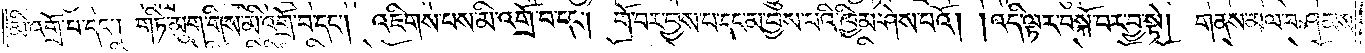མི་འགྲོ་བ་དང༌། གཏི་མུག་གིས་མི་འགྲོ་བ་དང༌། འཇིགས་པས་མི་འགྲོ་བ་དང༌། གོ་བར་བྱས་པ་དང་མ་བྱས་པའི་ཁྱིམ་ཤེས་པའོ། །འདི་ལྟར་བསྐོ་བར་བྱ་སྟེ། གནས་མལ་བཤམས་
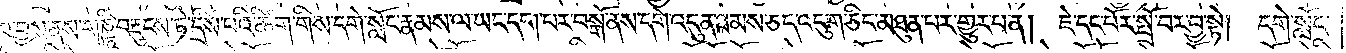པ་བྱས་ནས་གཎྜཱི་བརྡུངས་ཏེ་དྲིས་པའི་ཚིག་གིས་དགེ་སློང་རྣམས་ལ་ཡང་དག་པར་བསྒོ་ནས་དགེ་འདུན་ཐམས་ཅད་འདུག་ཅིང་མཐུན་པར་གྱུར་པ་ན། ཇེ་དང་པོར་སྤྲོ་བར་བྱ་སྟེ། དགེ་སློང་
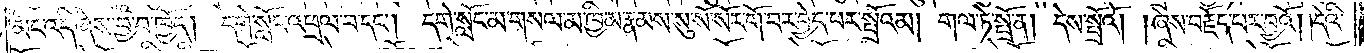མིང་འདི་ཞེས་བྱ་བ་ཁྱོད། དགེ་སློང་འཕྲལ་བ་དང༌། དགེ་སློང་མ་གསལ་མ་ཁྱིམ་རྣམས་སུ་སོ་སོར་གོ་བར་བྱེད་པར་སྤྲོའམ། གལ་ཏེ་སྤྲོ་ན། དེས་སྤྲོའོ། །ཞེས་བརྗོད་པར་བྱའོ། །དེའི་
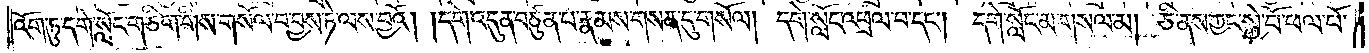འོག་ཏུ་དགེ་སློང་གཅིག་གིས་གསོལ་བ་བྱས་ཏེ་ལས་བྱའོ། །དགེ་འདུན་བཙུན་པ་རྣམས་གསན་དུ་གསོལ། དགེ་སློང་འཕྲལ་བ་དང༌། དགེ་སློང་མ་གསལ་མ། ཅི་ནས་ཀྱང་སྐྱེ་བོ་ཕལ་པོ་
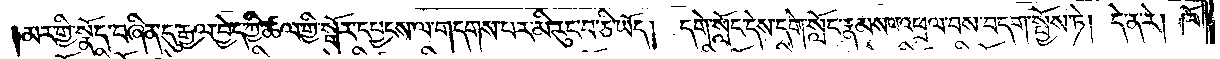མར་གྱི་སྣོད་བཞིན་དུ་རྒྱལ་བྱེད་ཀྱི་ཚལ་གྱི་སྒོར་དཔྱངས་ལ་གདགས་པར་མི་རུང་བ་ཅི་ཡོད། དགེ་སློང་དེས་དགེ་སློང་རྣམས་པ་འཕྲལ་བས་བདག་སྤྱོས་ཏེ། དེ་ན་རེ། ཁོ་
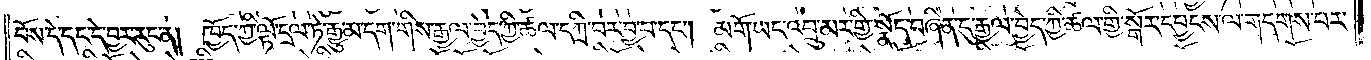བོས་དེ་དང་དེ་བྱར་རུང་ན། ཁྱོད་ཀྱི་ལྟོ་དྲལ་ཏེ་རྒྱུ་མ་དག་གིས་རྒྱལ་བྱེད་ཀྱི་ཚལ་དཀྲི་བར་བྱ་བ་དང༌། མགོ་ཡང་འབྲུ་མར་གྱི་སྣོད་བཞིན་དུ་རྒྱལ་བྱེད་ཀྱི་ཚལ་གྱི་སྒོར་དཔྱངས་ལ་གདགས་པར་
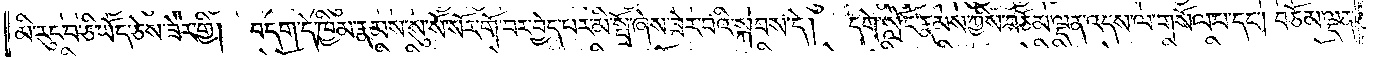མི་རུང་བ་ཅི་ཡོད་ཅེས་ཟེར་གྱི། བདག་དེ་ཁྱིམ་རྣམས་སུ་སོ་སོར་གོ་བར་བྱེད་པར་མི་སྤྲོ་ཞེས་ཟེར་བའི་སྐབས་དེ། དགེ་སློང་རྣམས་ཀྱིས་བཅོམ་ལྡན་འདས་ལ་གསོལ་པ་དང༌། བཅོམ་ལྡན་
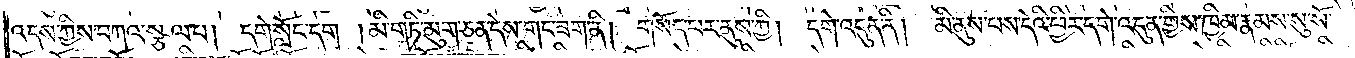འདས་ཀྱིས་བཀའ་སྩལ་པ། དགེ་སློང་དག །མི་གཏི་མུག་ཅན་དེས་གང་ཟག་ནི། གསོད་པར་ནུས་ཀྱི། དགེ་འདུན་ནི། མི་ནུས་པས་དེའི་ཕྱིར་དགེ་འདུན་གྱིས་ཁྱིམ་རྣམས་སུ་སོ་
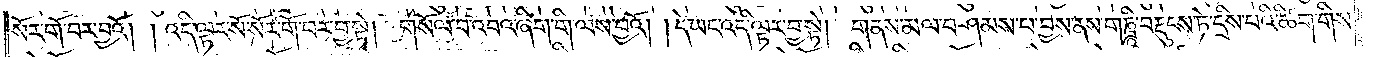སོར་གོ་བར་བྱའོ། །འདི་ལྟར་སོ་སོར་གོ་བར་བྱ་སྟེ། གསོལ་བ་འབའ་ཞིག་གི་ལས་བྱའོ། །དེ་ཡང་འདི་ལྟར་བྱ་སྟེ། གནས་མལ་བཤམས་པ་བྱས་ནས་གཎྜཱི་བརྡུངས་ཏེ་དྲིས་པའི་ཚིག་གིས་
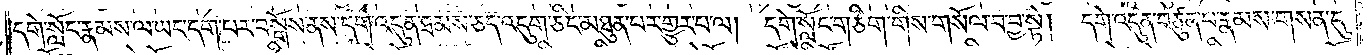དགེ་སློང་རྣམས་ལ་ཡང་དག་པར་བསྒོས་ནས་དགེ་འདུན་ཐམས་ཅད་འདུག་ཅིང་མཐུན་པར་གྱུར་པ་ལ། དགེ་སློང་གཅིག་གིས་གསོལ་བ་བྱ་སྟེ། དགེ་འདུན་བཙུན་པ་རྣམས་གསན་དུ་
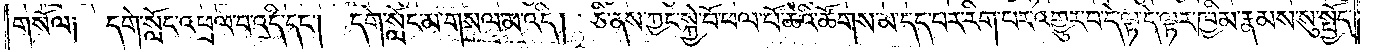གསོལ༑ དགེ་སློང་འཕྲལ་བ་འདི་དང༌། དགེ་སློང་མ་གསལ་མ་འདི། ཅི་ནས་ཀྱང་སྐྱེ་བོ་ཕལ་པོ་ཆེའི་ཚོགས་མ་དད་པར་རིག་པར་འགྱུར་བ་དེ་ལྟ་དེ་ལྟར་ཁྱིམ་རྣམས་སུ་སྤྱོད་
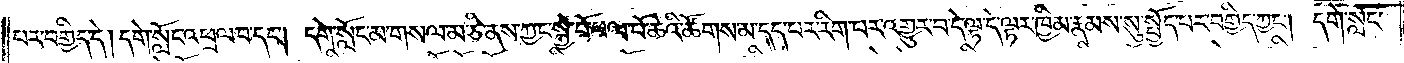པར་བགྱིད་དེ། དགེ་སློང་འཕྲལ་བ་དང༌། དགེ་སློང་མ་གསལ་མ་ཅི་ནས་ཀྱང་སྐྱེ་བོ་ཕལ་པོ་ཆེའི་ཚོགས་མ་དད་པར་རིག་པར་འགྱུར་བ་དེ་ལྟ་དེ་ལྟར་ཁྱིམ་རྣམས་སུ་སྤྱོད་པར་བགྱིད་ཀྱང༌། དགེ་སློང་
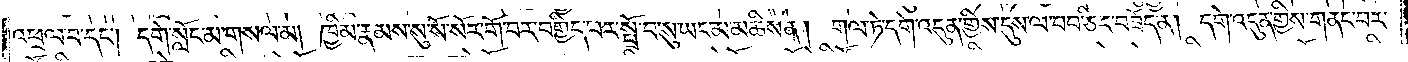འཕྲལ་བ་དང༌། དགེ་སློང་མ་གསལ་མ། ཁྱིམ་རྣམས་སུ་སོ་སོར་གོ་བར་བགྱིད་པར་སྤྲོ་བ་སུ་ཡང་མ་མཆིས་ན། གལ་ཏེ་དགེ་འདུན་གྱིས་དུས་ལ་བབ་ཅིང་བཟོད་ན། དགེ་འདུན་གྱིས་གནང་བར་
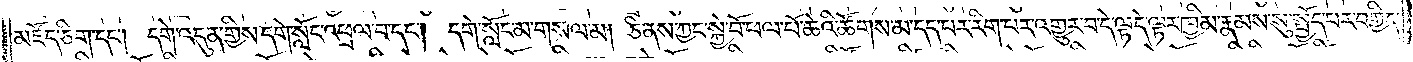མཛོད་ཅིག་དང༌། དགེ་འདུན་གྱིས་དགེ་སློང་འཕྲལ་བ་དང༌། དགེ་སློང་མ་གསལ་མ། ཅི་ནས་ཀྱང་སྐྱེ་བོ་ཕལ་པོ་ཆེའི་ཚོགས་མ་དད་པར་རིག་པར་འགྱུར་བ་དེ་ལྟ་དེ་ལྟར་ཁྱིམ་རྣམས་སུ་སྤྱོད་པར་བགྱིད་
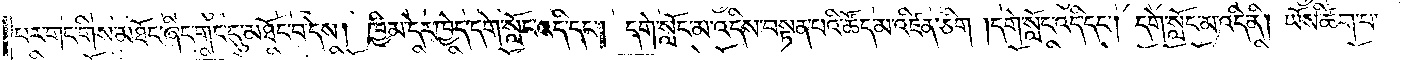པར་གང་གིས་མཐོང་ཞིང་གང་དུ་མཐོང་བ་དེས། ཁྱིམ་དེར་ཁྱེད་དགེ་སློང་འདི་དང༌། དགེ་སློང་མ་འདིས་བསྟན་པའི་ཚོད་མ་འཛིན་ཅིག །དགེ་སློང་འདི་དང༌། དགེ་སློང་མ་འདི་ནི། ཡོས་ཚིག་པ་
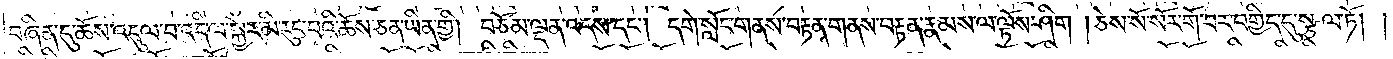བཞིན་དུ་ཆོས་འདུལ་བ་འདི་ལ་སྐྱེར་མི་རུང་བའི་ཆོས་ཅན་ཡིན་གྱི། བཅོམ་ལྡན་འདས་དང༌། དགེ་སློང་གནས་བརྟན་གནས་བརྟན་རྣམས་ལ་ལྟོས་ཤིག །ཅེས་སོ་སོར་གོ་བར་བགྱིད་དུ་སྩལ་ཏོ། །
